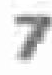7
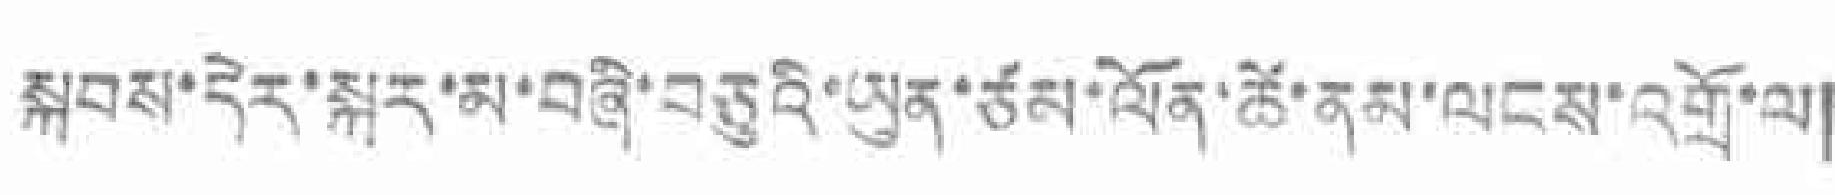སྐབས་དེར་སྐར་མ་བཞི་བཅུའི་ཡུན་ཙམ་ལོན་ཚེ་ནམ་ལངས་འགྲོ་ལ།
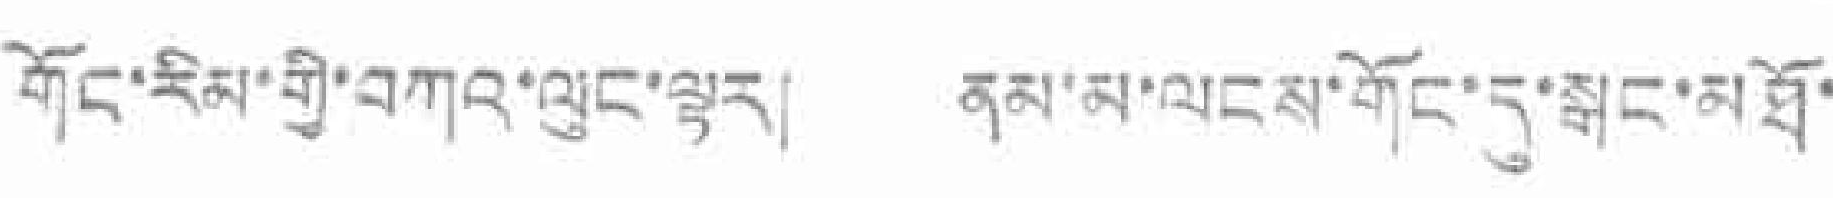གོང་རིམ་གྱི་བཀའ་ལུང་ལྟར། ནམ་མ་ལངས་གོང་དུ་སྒང་མཐོ་
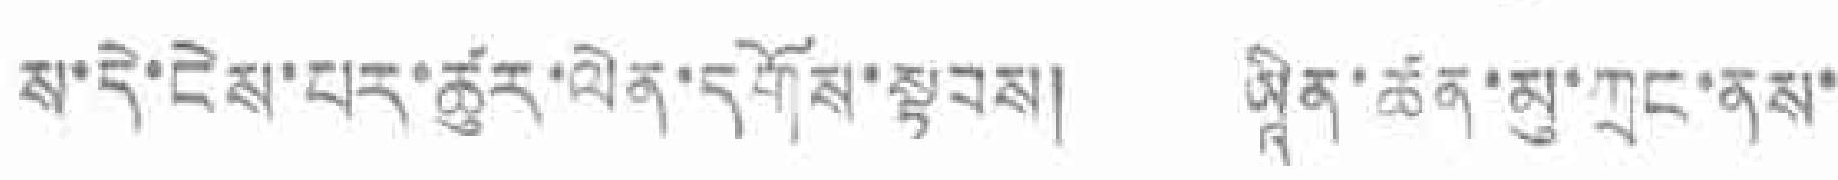ས་དེ་ངེས་པར་ཚུར་ལེན་དགོས་སྟབས། ཡཱིན་ཚན་མུ་གྲང་ནས་
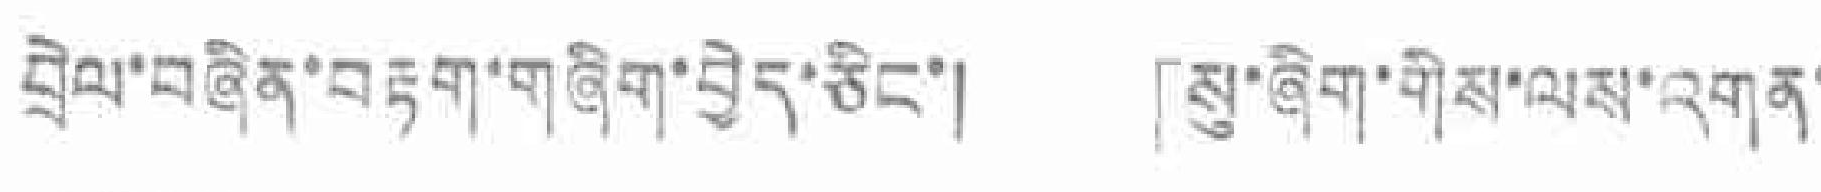བྲེལ་བཞིན་བརྟག་གཞིག་བྱེད་ཅིང་། 「སུ་ཞིག་གེས་ལས་འགན་
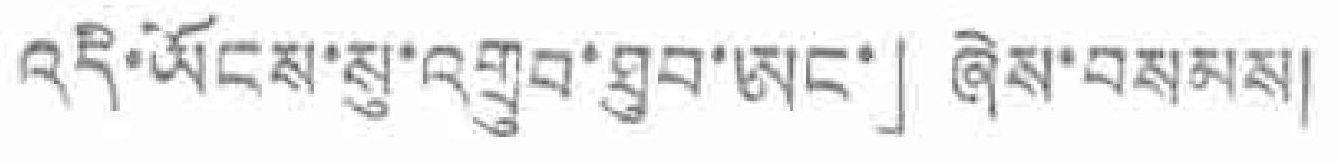འདི་ཡོངས་སུ་འགྲུབ་ཐུབ་ཨང་」ཞེས་བསམས།
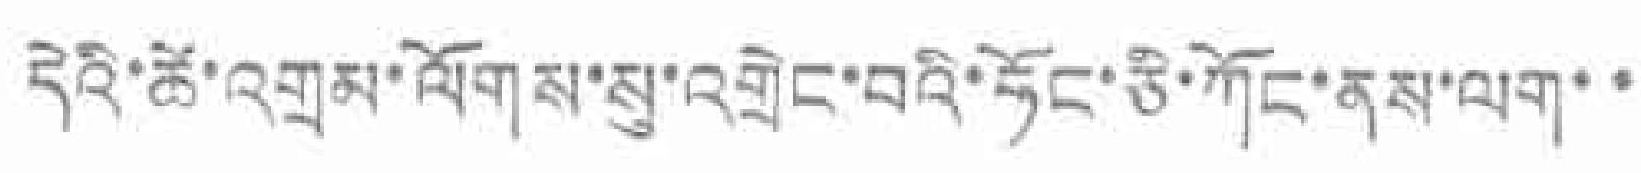དེའི་ཚེ་འགྲམ་ལོགས་སུ་འགྲེང་བའི་ཧོང་ཅི་ཀོང་ནས་ལག་་
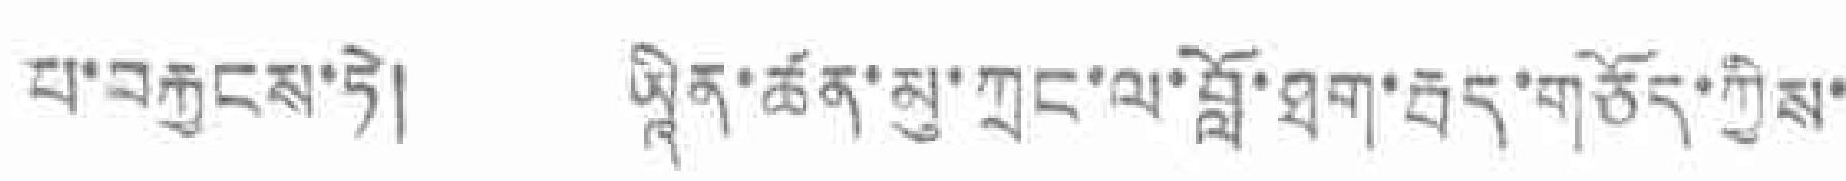པ་བརྐྱངས་ཏེ། ཡཱིན་ཚན་མུ་ཀྲང་ལ་བློ་ཐག་རྦད་གཅོད་ཀྱིས་
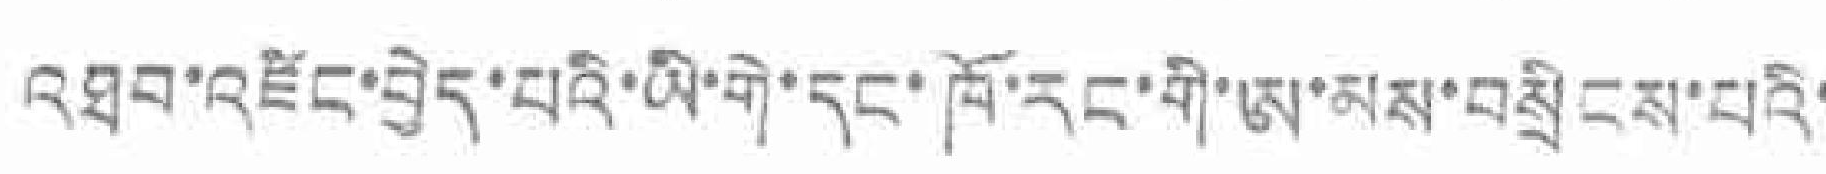འཐབ་འཛིང་བྱེད་པའི་ཡི་གེ་དང་ཁོ་རང་གི་ཨ་མས་བསྲིངས་པའི་
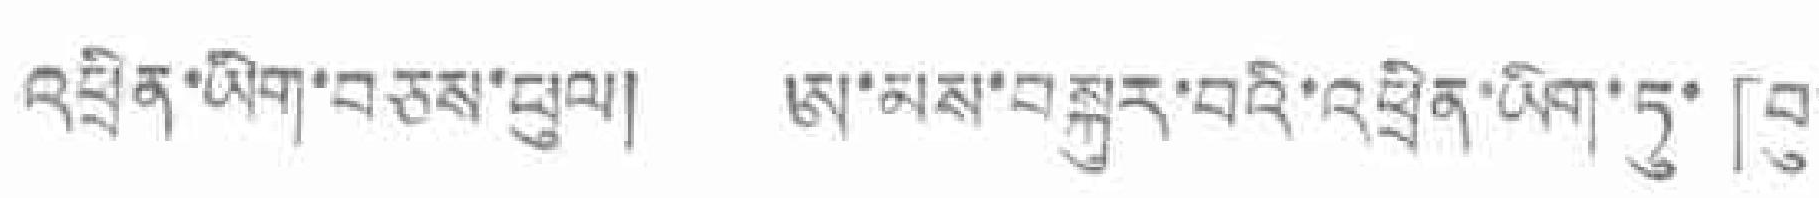འཕྲིན་ཡིག་བཅས་ཕུལ། ཨ་མས་བསྐུར་བའི་འཕྲིན་མིག་ཏུ་「བུ་
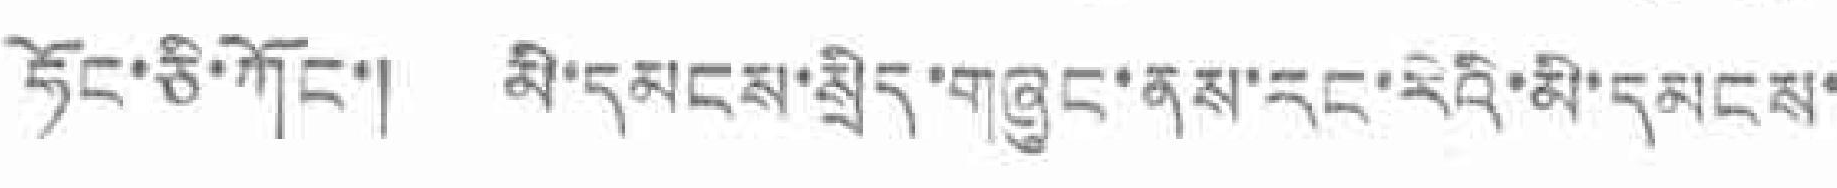ཧོང་ཅི་ཀོང་། མི་དམངས་སྲིད་གཞུང་ནས་རང་རེའི་མི་དམངས་
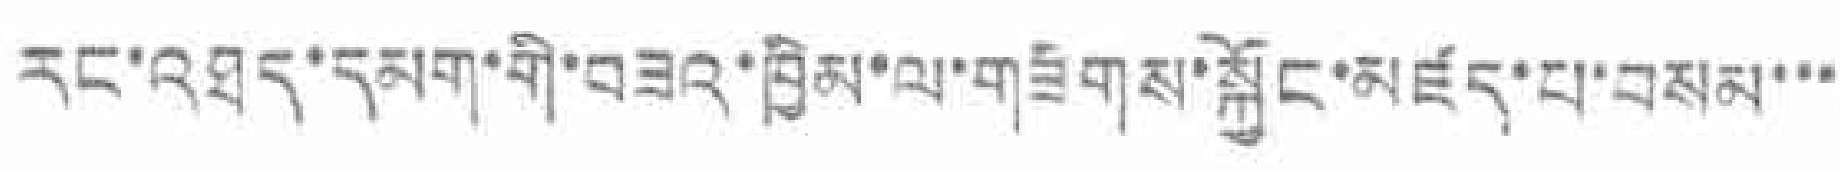རང་འཐད་དམག་གི་བཟའ་ཁྱིམ་ལ་གཟིགས་སྐྱོང་མཛད་པ་བསམ་་་
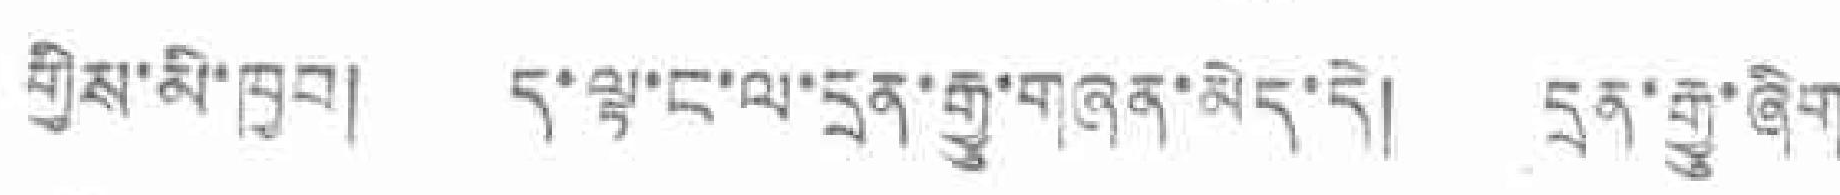གྱིས་མི་ཁྱབ། ད་ལྟ་ང་ལ་དྲན་རྒྱུ་གཞན་མེད་དེ། དྲན་རྒྱུ་ཞིག
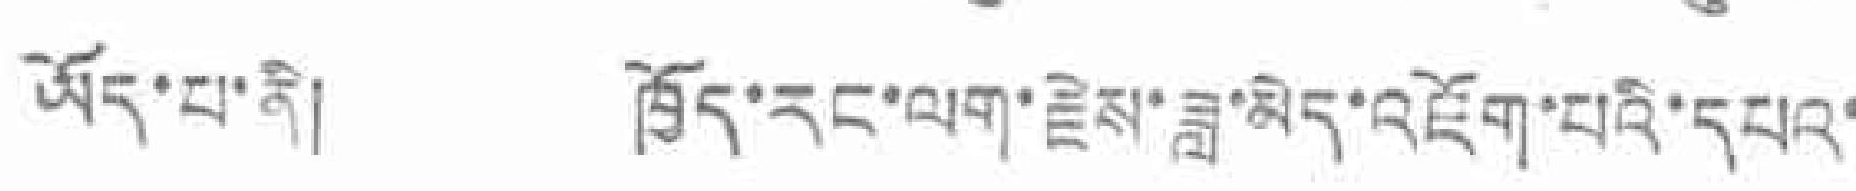ཡོད་པ་ནི། ཁྱོད་རང་ལག་རྗེས་ཟླ་མེར་འཇོག་པའི་དཔའ་
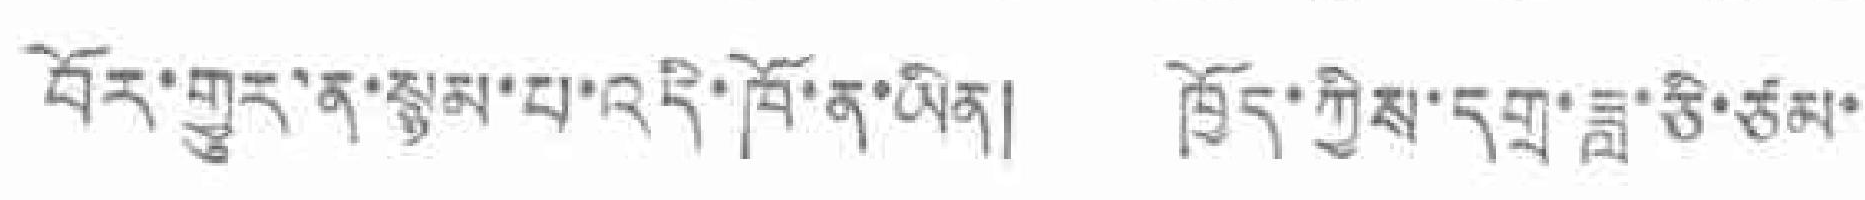བོར་གྱུར་ན་སྙམ་པ་འདི་ཁོ་ན་ཡིན། ཁྱོད་ཀྱིས་དགྲ་ཟླ་ཅི་ཅམ་
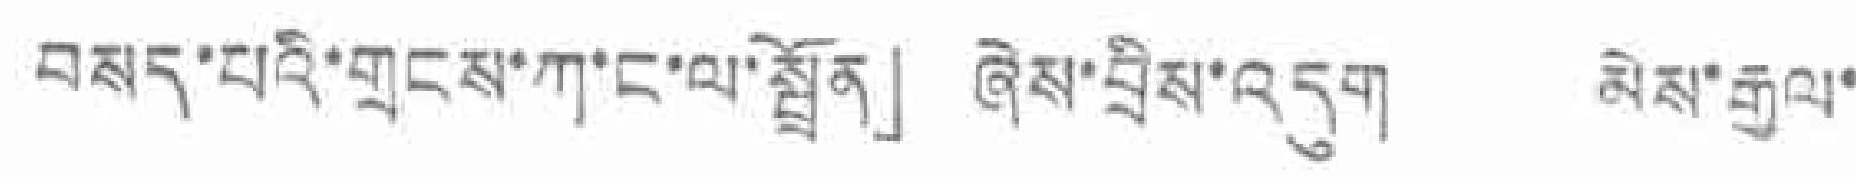བསད་པའི་གྲངས་ཀ་ང་ལ་སྦྱོན」 ཞེས་བྲིས་འདུག མེས་རྒྱལ་
